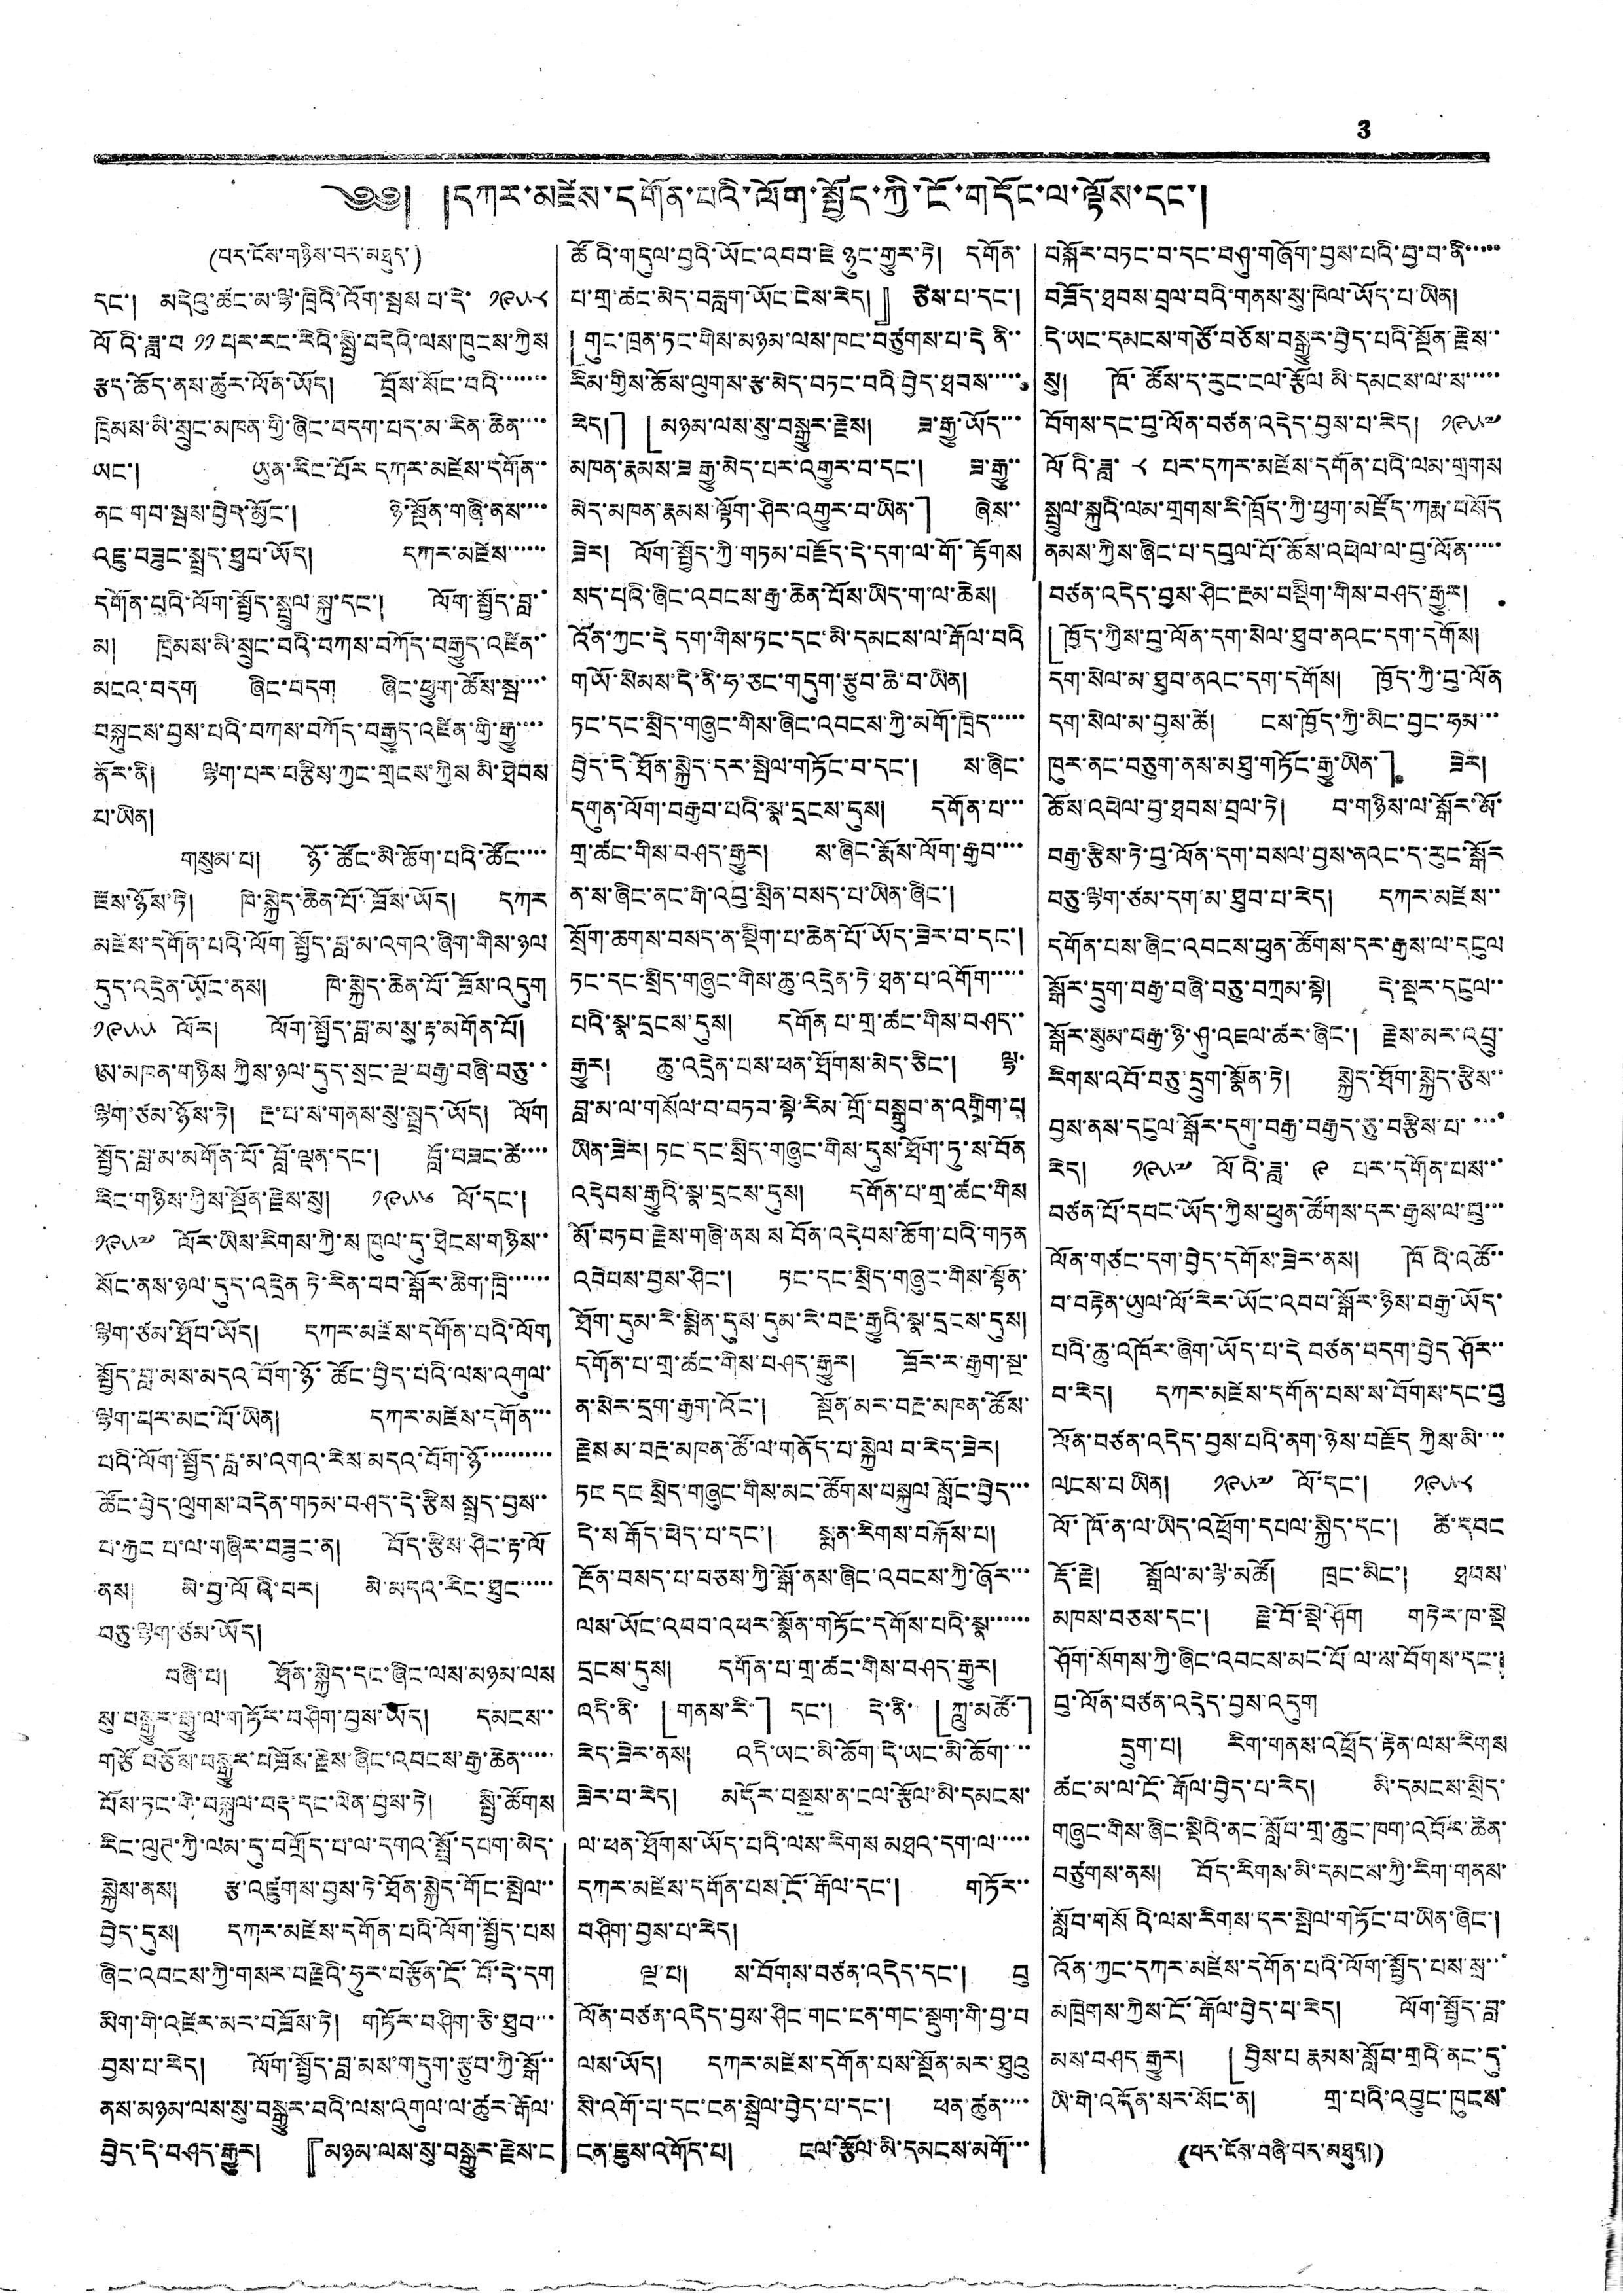3
༄༅། །དཀར་མཛེས་དགོན་པའི་ལོག་སྤྱོད་ཀྱི་ངོ་གདོང་ལ་སྟོས་དང་།
(པར་ངོས་གཉིས་པར་མཐུད་)
དང་། མདེའུ་ཚང་མ་ལྷ་ཁྲིའི་འོག་སྦས པ་དེ་ ༡༩༥༨
ལོའི་ཟླ་བ ༡༡ པར་རང་རེའི་སྤྱི་བདེའི་ལས་ཁུངས་ཀྱིས
རྩད་ཆོད་ནས་ཚུར་ལོན་ཡོད། བྲོས་སོང་བའི་་་་་་་
ཁྲིམས་མི་སྲུང་མཁན་གྱི་ཞིང་བདག་པར་མ་རིན་ཆེན་་་་
ཡང་། ཡུན་རིང་པོར དཀར་མཛེས་དགོན་་
ནང་གབ་སྦས་བྱེད་མྱོང་། ཉེ་སྔོན་གཞི་ནས་་་་
འཇུ་བཟུང་སྤྲད་ཐུབ་ཡོད། དཀར་མཛེས་་་་་་
དགོན་པའི་ལོག་སྤྱོད་སྤྲུལ་སྐུ་དང་། ལོག་སྤྱོད་བླ་་
མ། ཁྲིམས་མི་སྲུང་བའི་བཀས་བཀོད་བརྒྱུད་འཛིན་་
མངའ་བདག ཞིང་བདག ཞིང་ཕྱུག་ཚོས་སྦ་་་་
བསྐུངས་བྱས་པའི་བཀས་བཀོད་བརྒྱུད་འཛིན་གྱི་རྒྱུ་་་་
ནོར་ནི། ལྷག་པར་བརྩིས་ཀྱང་གྲངས་ཀྱིས མི་ཐེབས
པ་ཡིན།
གསུམ་པ། ཉོ་ཚོང་མི་ཆོག་པའི་ཚོང་་་་
རྫས་ཉོས་ཏེ། ཁེ་སྐྱིད་ཆེན་པོ་ཟོས་ཡོད། དཀར
མཛེས་དགོན་པའི་ལོག སྤྱོད་བླ་མ་འགའ་ཞིག་གིས་ཉལ
དུད་འདྲེན་ཡོང་ནས། ཁེ་སྐྱེད་ཆེན་པོ་ཟོས་འདུག
༡༩༥༥ ལོར། ལོག་སྤྱོད་བླ་མ་སུ་རྟ་མགོན་པོ།
ཨ་མཁན་གཉིས ཀྱིས་ཉལ་དུད་སྲང་ལྔ་བརྒྱ་བཞི་བཅུ་་
ལྷག་ཙམ་ཉོས་ཏེ། རྔ་པ་ས་གནས་སུ་སྤྲད་ཡོད། ལོག
སྤྱོད་བླ་མ་མགོན་པོ་བློ་ལྡན་དང་། བློ་བཟང་ཚེ་་་་
རིང་གཉིས་ཀྱིས་སྔོན་རྗེས་སུ། ༡༩༥༦ ལོ་དང་།
༡༩༥༧ ལོར་ཡིས་རིགས་ཀྱི་ས ཁུལ་དུ་ཐེངས་གཉིས་་
སོང་ནས་ཉལ་དུད་འདྲེན ཏེ་རིན་བབ་སྒོར་ཆིག་ཁྲི་་་་་་
ལྷག་ཙམ་ཐོབ་ཡོད། དཀར་མཛེས་དགོན་པའི་ལོག
སྤྱོད་བླ་མས་མདའ་བོག་ཉོ་ཚོང་བྱེད་པའི་ལས་འགུལ་
ལྷག་པར་མང་པོ་ཡིན། དཀར་མཛེས་དགོན་་་
པའི་ལོག་སྤྱོད་བླ་མ་འགའ་རེས་མདའ་བོག་ཉོ་་་་་་་་་་
ཚོང་བྱེད་ལུགས་བདེན་གཏམ་བཤད་དེ་རྩིས སྤྲད་བྱས་་
པ་རྐྱང པ་ལ་གཞིར་བཟུང་ན། བོད་རྩིས་ཤིང་རྟ་ལོ
ནས། མེ་བྱ་ལོའི་པར། མེ་མདའ་རིང་ཐུང་་་་་
བཅུ་ལྷག་ཙམ་ཡོད།
བཞི་པ། ཐོན་སྐྱེད་དང་ཞིང་ལས་མཉམ་ལས
སུ་བསྒྱུར་རྒྱུ་ལ་གཏོར་བཤིག་བྱས་ཡོད། དམངས་་
གཙོ བཅོས་བསྒྱུར་བཟོས་རྗེས་ཞིང་འབངས་རྒྱ་ཆེན་་་་་
པོས་ཏང་གི་བསྐུལ་བརྡ་དང་ལེན་བྱས་ཏེ། སྤྱི་ཚོགས
རིང་ལུཊ་ཀྱི་ལམ་དུ་བགྲོད་པ་ལ་དགའ་སྤྲོ་དཔག་མེད་
སྐྱེས་ནས། རྩ་འཛུགས་བྱས་ཏེ་ཐོན་སྐྱེད་གོང་སྤེལ་་
བྱེད་དུས། དཀར་མཛེས་དགོན་པའི་ལོག་སྤྱོད་པས
ཞིང་འབངས་ཀྱི་གསར་བརྗེའི་ཧུར་བརྩོན་ངོ་བོ་དེ་དག
མིག་གི་འཛེར་མར་བཟོས་ཏེ། གཏོར་བཤིག་ཅི་ཐུབ་་་
བྱས་པ་རེད། ལོག་སྤྱོད་བླ་མས་གདུག་རྩུབ་ཀྱི་སྒོ་་
ནས་མཉམ་ལས་སུ་བསྒྱུར་བའི་ལས་འགུལ་ལ་ཚུར་རྒོལ་
བྱེད་དེ་བཤད་རྒྱུར། 『མཉམ་ལས་སུ་བསྒྱུར་རྗེས་ང
ཚོའི་གདུལ་བྱའི་ཡོང་འབབ་ཇེ ཉུང་གྱུར་ཏེ། དགོན་
པ་གྲ་ཚང་མེད་བརླག་ཡོང་ངེས་རེད།』 ཅེས་པ་དང་།
「གུང་ཁྲན་ཏང་གིས་མཉམ་ལས་ཁང་བཙུགས་པ་དེ ནི་་
རིམ་གྱིས་ཆོས་ལུགས་རྩ་མེད་བཏང་བའི་བྱེད་ཐབས་་་་་
རེད།」「མཉམ་ལས་སུ་བསྒྱུར་རྗེས། ཟ་རྒྱུ་ཡོད་་་
མཁན་རྣམས་ཟ རྒྱུ་མེད་པར་འགྱུར་བ་དང་། ཟ་རྒྱུ་་
མེད་མཁན་རྣམས་ལྟོག་ཤིར་འགྱུར་བ་ཡིན་」 ཞེས་་
ཟེར། ལོག་སྤྱོད་ཀྱི་གཏམ་བརྗོད་དེ་དག་ལ་གོ་རྟོགས
སད་པའི་ཞིང་འབངས་རྒྱ་ཆེན་པོས་ཡིད་ག་ལ་ཆེས།
འོན་ཀྱང་དེ་དག་གིས་ཏང་དང་མི་དམངས་ལ་རྒོལ་བའི
གཡོ་སེམས་དེ་ནི་ཧ་ཅང་གདུག་རྩུབ་ཆེ་བ་ཡིན།
ཏང་དང་སྲིད་གཞུང་གིས་ཞིང་འབངས་ཀྱི་མགོ་ཁྲིད་་་་་
བྱེད་དེ་ཐོན་སྐྱེད་དར་སྤེལ་གཏོང་བ་དང་། ས་ཞིང་
དགུན་ལོག་བརྒྱབ་པའི་སྣ་དྲངས་དུས། དགོན་པ་་་
གྲ་ཚང་གིས་བཤད་རྒྱུར། ས་ཞིང་རྨོས་ལོག་རྒྱབ་་་་
ན་ས་ཞིང་ནང་གི་འབུ་སྲིན་བསད་པ་ཡིན་ཞིང་།
སྲོག་ཆགས་བསད་ན་སྡིག་པ་ཆེན་པོ་ཡོད་ཟེར་བ་དང་།
ཏང་དང་སྲིད་གཞུང་གིས་ཆུ་འདྲེན་ཏེ་ཐན་པ་འགོག་་་་་
པའི་སྣ་དྲངས་དུས། དགོན པ་གྲ་ཚང་གིས་བཤད་་
རྒྱུར། ཆུ་འདྲེན་པས་ཕན་ཐོགས་མེད་ཅིང་། ལྷ་
བླ་མ་ལ་གསོལ་བ་བཏབ་སྟེ་རིམ་གྲོ་བསྒྲུབ་ན་འགྲིག་པ
ཡིན་ཟེར། ཏང་དང་སྲིད་གཞུང་གིས་དུས་ཐོག་ཏུ་ས་བོན
འདེབས་རྒྱུའི་སྣ་དྲངས་དུས། དགོན་པ་གྲ་ཚང་གིས
མོ་བཏབ་རྗེས་གཞི་ནས ས བོན་འདེབས་ཆོག་པའི་གཏན
འབེབས་བྱས་ཤིང་། ཏང་དང་སྲིད་གཞུང་གིས་སྟོན་
ཐོག་དུམ་རེ་སྨིན་དུས་དུམ་རེ་བརྔ་རྒྱུའི་སྣ་དྲངས་དུས།
དགོན་པ་གྲ་ཚང་གིས་བཤད་རྒྱུར། ཟོར་ར་རྒྱག་སྔ་
ན་སེར་དྲག་རྒྱག་འོང་། སྔོན་མར་བརྔ་མཁན་ཚོས་
རྗེས་མ་བརྔ་མཁན་ཚོ་ལ་གནོད་པ་སྐྱེལ བ་རེད་ཟེར།
ཏང དང སྲིད་གཞུང་གིས་མང་ཚོགས་བསྐུལ སློང་བྱེད་་་
དེ་ས རྒོད་ཕེད་པ་དང་། སྨན་རིགས་བསྐོས་པ།
རྔོན་བསད་པ་བཅས་ཀྱི་སྒོ་ནས་ཞིང་འབངས་ཀྱི་ཞོར་་་
ལས་ཡོང་འབབ་འཕར་སྣོན་གཏོང་དགོས་པའི་སྣ་་་་་་
དྲངས་དུས། དགོན་པ་གྲ་ཚང་གིས་བཤད་རྒྱུར།
འདི་ནི་ 「གནས་རི་」 དང་། དེ་ནི་ 「ཀླུ་མཚོ་」
རེད་ཟེར་ནས། འདི་ཡང་མི་ཆོག་དེ་ཡང་མི་ཆོག་་་་
ཟེར་བ་རེད། མདོར་བསྡུས་ན་ངལ་རྩོལ་མི་དམངས་
ལ་ཕན་ཐོགས་ཡོད་པའི་ལས་རིགས མཐའ་དག་ལ་་་་་
དཀར་མཛེས་དགོན་པས་ངོ་རྒོལ་དང་། གཏོར་་
བཤིག་བྱས་པ་རེད།
ལྔ་པ། ས་བོགས་བཙན་འདེད་དང་། བུ
ལོན་བཙན་འདེད་བྱས་ཤིང་གང་ངན་གང་སྡུག་གི་བྱ་བ
ལས་ཡོད། དཀར་མཛེས་དགོན་པས་སྔོན་མར་ཐུའུ
སི་འགོ་པ་དང་ངན་སྦྲེལ་བྱེད་པ་དང་། ཕན་ཚུན་་་་
ངན་ཇུས་འགོད་པ། ངལ་རྩོལ་མི་དམངས་མགོ་་་
བསྐོར་བཏང་བ་དང་བཤུ་གཞོག་བྱས་པའི་བྱ་བ་ནི་་་་་
བཟོད་ཐབས་བྲལ་བའི་གནས་སུ་ཁེལ་ཡོད་པ་ཡིན།
དེ་ཡང་དམངས་གཙོ་བཅོས་བསྒྱུར་བྱེད་པའི་སྔོན་རྗེས་་
སུ། ཁོ་ཚོས་ད་རུང་ངལ་རྩོལ མི་དམངས་ལ་ས་་་་་
བོགས་དང་བུ་ལོན་བཙན་འདེད་བྱས་པ་རེད། ༡༩༥༧
ལོའི་ཟླ་ ༨ པར་དཀར་མཛེས་དགོན་པའི་ལམ་གྲགས
སྦྲུལ་སྐུའི་ལམ་གྲགས་རི་ཁྲོད་ཀྱི་ཕྱག་མཛོད་ཀརྨ་བསོད
ནམས་ཀྱིས་ཞིང་པ་དབུལ་པོ་ཆོས་འཕེལ་ལ་བུ་ལོན་་་་་
བཙན་འདེད་བྱས་ཤིང་རྔམ་བསྡིག་གིས་བཤད་རྒྱུར།
「ཁྱོད་ཀྱིས་བུ་ལོན་དག་སེལ་ཐུབ་ནའང་དག་དགོས།
དག་སེལ་མ་ཐུབ་ནའང་དག་དགོས། ཁྱོད་ཀྱི་བུ་ལོན
དག་སེལ་མ་བྱས་ཚེ། ངས་ཁྱོད་ཀྱི་མིང་བྱང་ཧམ་་་
ཁུར་ནང་བཅུག་ནས་མཐུ་གཏོང་རྒྱུ་ཡིན་」 ཟེར།
ཆོས་འཕེལ་བྱ་ཐབས་བྲལ་ཏེ། བ་གཉིས་ལ་སྒོར་མོ་
བརྒྱ་རྩིས་ཏེ་བུ་ལོན་དག་བསལ་བྱས་ནའང་ད་རུང་སྒོར
བཅུ་ལྷག་ཙམ་དག་མ་ཐུབ་པ་རེད། དཀར་མཛེས་་
དགོན་པས་ཞིང་འབངས་ཕུན་ཚོགས་དར་རྒྱས་ལ་དངུལ
སྒོར་དྲུག་བརྒྱ་བཞི་བཅུ་བཀྲམ་སྟེ། དེ་སྔར་དངུལ་་
སྒོར་སུམ་བརྒྱ་ཉི་ཤུ་འཇལ་ཚར་ཞིང་། རྗེས་མར་འབྲུ་
རིགས་འབོ་བཅུ་དྲུག་སྣོན་ཏེ། སྐྱེད་ཐོག་སྐྱེད་རྩིས་་
བྱས་ནས་དངུལ་སྒོར་དགུ་བརྒྱ་བརྒྱད་ཅུ་བརྩིས་པ་་་་་
རེད། ༡༩༥༧ ལོའི་ཟླ་ ༩ པར་དགོན་པས་་་
བཙན་པོ་དབང་ཡོད་ཀྱིས་ཕུན་ཚོགས་དར་རྒྱས་ལ་བུ་་་
ལོན་གཙང་དག་བྱེད་དགོས་ཟེར་ནས། ཁོའི་འཚོ་་
བ་བརྟེན་ཡུལ་ལོ་རེར་ཡོང་འབབ་སྒོར་ཉིས་བརྒྱ་ཡོད་
པའི་ཆུ་འཁོར་ཞིག་ཡོད་པ་དེ བཙན་བདག་བྱེད ཤོར་་
བ་རེད། དཀར་མཛེས་དགོན་པས་ས་བོགས་དང་བུ
ལོན་བཙན་འདེད་བྱས་པའི་ནག་ཉེས་བརྗོད ཀྱིས་མི་་་་
ལངས་པ ཡིན། ༡༩༥༧ ལོ་དང་། ༡༩༥༨
ལོ་ཁོ་ན་ལ་ཡིད་འཕྲོག་དཔལ་སྐྱིད་དང་། ཚེ་དབང
རྡོ་རྗེ། སྒྲོལ་མ་ལྷ་མཚོ། ཁྲང་མིང་། ཐབས་
མཁས་བཅས་དང་། རྗེ་བོ་སྡེ་ཤོག གཏེར་ཁ་སྡེ
ཤོག་སོགས་ཀྱི་ཞིང་འབངས་མང་པོ་ལ་ས་བོགས་དང་།
བུ་ལོན་བཙན་འདེད་བྱས་འདུག
དྲུག་པ། རིག་གནས་འཕྲོད་རྟེན་ལས་རིགས
ཚང་མ་ལ་ངོ་རྒོལ་བྱེད་པ་རེད། མི་དམངས་སྲིད་
གཞུང་གིས་ཞིང་སྡེའི་ནང་སློབ་གྲ་ཆུང་ཁག་འབོར་ཆེན་
བཙུགས་ནས། བོད་རིགས་མི་དམངས་ཀྱི་རིག་གནས་
སློབ་གསོའི་ལས་རིགས་དར་སྤེལ་གཏོང་བ་ཡིན་ཞིང་།
འོན་ཀྱང་དཀར་མཛེས་དགོན་པའི་ལོག་སྤྱོད་པས་སྲ་་་
མཁྲེགས་ཀྱིས་ངོ་རྒོལ་བྱེད་པ་རེད། ལོག་སྤྱོད་བླ་
མས་བཤད རྒྱུར། 「བྱིས་པ རྣམས་སློབ་གྲའི་ནང་དུ་
ཡི་གེ་འདོན་སར་སོང་ན། གྲ་པའི་འབྱུང་ཁུངས་
(པར་ངོས་བཞི་པར་མཐུད།)
